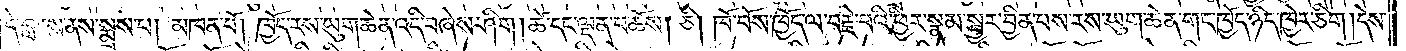དེ་བླངས་ནས་སྨྲས་པ། མཁན་པོ། ཁྱོད་རས་ཡུག་ཆེན་འདི་བཞེས་ཤིག །ཚེ་དང་ལྡན་པ་ཆོས། ཅི། ཁོ་བོས་ཁྱོད་ལ་བརྗེ་བའི་ཕྱིར་སྣམ་སྦྱར་བྱིན་པས་རས་ཡུག་ཆེན་གང་ཁྱོད་ཉིད་ཁྱེར་ཅིག །དེས་
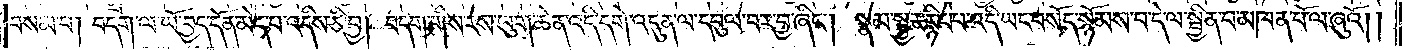བསམ་པ། བདག་ལ་ཡོ་བྱད་དོན་མེད་པ་འདིས་ཅི་བྱ། བདག་གིས་རས་ཡུག་ཆེན་འདི་དགེ་འདུན་ལ་དབུལ་བར་བྱ་ཞིང༌། སྣམ་སྦྱར་རྙིང་པ་འདི་ཡང་བསོད་སྙོམས་པ་དེ་ལ་སྦྱིན་པ་མཁན་པོ་ལ་ཞུའོ། །
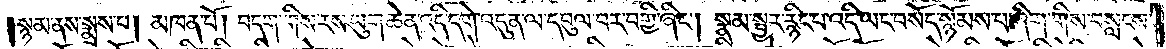སྙམ་ནས་སྨྲས་པ། མཁན་པོ། བདག་གིས་རས་ཡུག་ཆེན་འདི་དགེ་འདུན་ལ་དབུལ་བར་བགྱི་ཞིང༌། སྣམ་སྦྱར་རྙིང་པ་འདི་ཡང་བསོད་སྙོམས་པ་ཞིག་གིས་བསླངས་
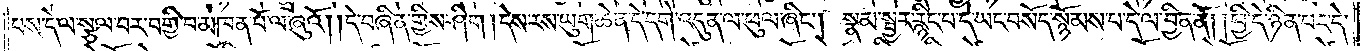བས་དེ་ལ་སྩལ་བར་བགྱི་བ་མཁན་པོ་ལ་ཞུའོ། །དེ་བཞིན་གྱིས་ཤིག །དེས་རས་ཡུག་ཆེན་དེ་དགེ་འདུན་ལ་ཕུལ་ཞིང༌། སྣམ་སྦྱར་རྙིང་པ་དེ་ཡང་བསོད་སྙོམས་པ་དེ་ལ་བྱིན་ནོ། །ཕྱི་དེ་ཉིན་པར་དེ་
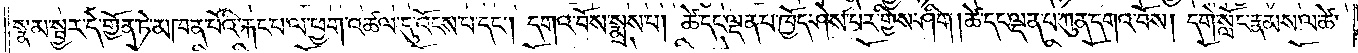སྣམ་སྦྱར་དེ་གྱོན་ཏེ་མཁན་པོའི་རྐང་པ་ལ་ཕྱག་འཚལ་དུ་འོངས་པ་དང༌། དགའ་བོས་སྨྲས་པ། ཚེ་དང་ལྡན་པ་ཁྱོད་ཤེས་པར་གྱིས་ཤིག །ཚེ་དང་ལྡན་པ་ཀུན་དགའ་བོས། དགེ་སློང་རྣམས་ལ་ཚེ་
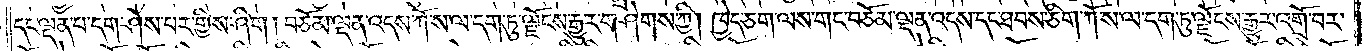དང་ལྡན་པ་དག་ཤེས་པར་གྱིས་ཤིག །བཅོམ་ལྡན་འདས་ཀོ་ས་ལ་དག་ཏུ་ལྗོངས་རྒྱུར་གཤེགས་ཀྱི། ཁྱེད་ཅག་ལས་གང་བཅོམ་ལྡན་འདས་དང་ཐབས་ཅིག་ཀོ་ས་ལ་དག་ཏུ་ལྗོངས་རྒྱུར་འགྲོ་བར་
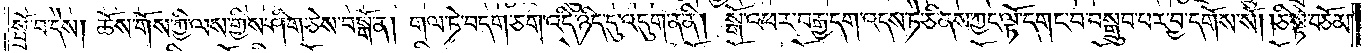སྤྲོ་བ་དེས། ཆོས་གོས་ཀྱི་ལས་གྱིས་ཤིག་ཅེས་བསྒོ་ན། གལ་ཏེ་བདག་ཅག་འདི་ཉིད་དུ་འདུག་ན་ནི། སྒོ་འཕར་བརྒྱ་དག་འདས་ཏེ་ཅི་ནས་ཀྱང་ལྟོ་དགང་བ་བསྒྲུབ་པར་བྱ་དགོས་སོ། །ཅི་སྟེ་བཅོམ་
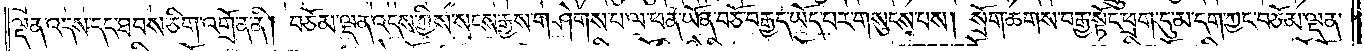ལྡན་འདས་དང་ཐབས་ཅིག་འགྲོ་ན་ནི། བཅོམ་ལྡན་འདས་ཀྱིས་སངས་རྒྱས་གཤེགས་པ་ལ་ཕན་ཡོན་བཅོ་བརྒྱད་ཡོད་པར་གསུངས་པས། སྲོག་ཆགས་བརྒྱ་སྟོང་ཕྲག་དུ་མ་དག་ཀྱང་བཅོམ་ལྡན་
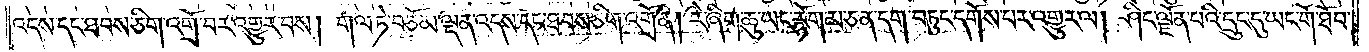འདས་དང་ཐབས་ཅིག་འགྲོ་བར་འགྱུར་བས། གལ་ཏེ་བཅོམ་ལྡན་འདས་དང་ཐབས་ཅིག་འགྲོ་ན། རེ་ཞིག་ཆུ་ཡང་རྙོག་མ་ཅན་དག་བཏུང་དགོས་པར་འགྱུར་ལ། ཤིང་ལྗོན་པའི་དྲུང་དུ་ཡང་གོ་ཐོབ་
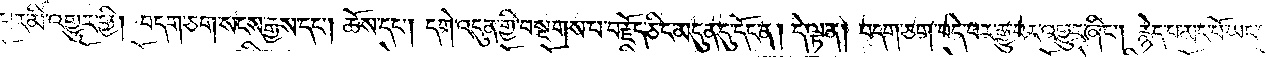པར་མི་འགྱུར་གྱི། བདག་ཅག་སངས་རྒྱས་དང༌། ཆོས་དང༌། དགེ་འདུན་གྱི་བསྔགས་པ་བརྗོད་ཅིང་མདུན་དུ་དོང་ན། དེ་ལྟ་ན། བདག་ཅག་བདེ་བར་རྒྱུ་བར་འགྱུར་ཞིང༌། རྙེད་པ་མང་པོ་ཡང་འགྲུབ་པར་འགྱུར་
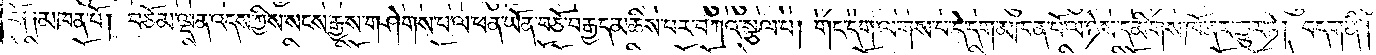རོ༑ ༑མཁན་པོ། བཅོམ་ལྡན་འདས་ཀྱིས་སངས་རྒྱས་གཤེགས་པ་ལ་ཕན་ཡོན་བཅོ་བརྒྱད་མཆིས་པར་བཀའ་སྩལ་པ། གང་དག་ལགས་པ་དེ་དག་མཁན་པོ་ལ་ཉེས་དམིགས་ཁོ་ནར་གྱུར་ཏེ། བདག་ནི།
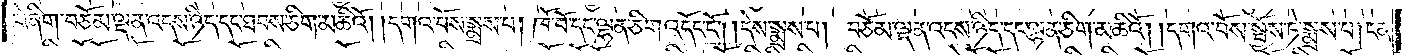རེ་ཞིག་བཅོམ་ལྡན་འདས་ཉིད་དང་ཐབས་ཅིག་མཆིའོ། །དགའ་བོས་སྨྲས་པ། ཁོ་བོ་དང་ལྷན་ཅིག་འདོང་ངོ༌། །དེས་སྨྲས་པ། བཅོམ་ལྡན་འདས་ཉིད་དང་ལྷན་ཅིག་མཆིའོ། །དགའ་བོས་སྤྱོས་ཏེ་སྨྲས་པ། ངན་
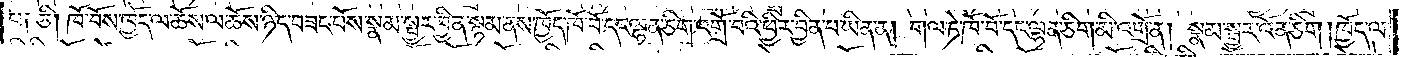པ། ཅི། ཁོ་བོས་ཁྱོད་ལ་ཆོས་ལ་ཆོས་ཉིད་བཟང་པོས་སྣམ་སྦྱར་བྱིན་སྙམ་ནས་ཁྱོད་ཁོ་བོ་དང་ལྷན་ཅིག་འགྲོ་བའི་ཕྱིར་བྱིན་པ་ཡིན་ན། གལ་ཏེ་ཁོ་བོ་དང་ལྷན་ཅིག་མི་འགྲོ་ན། སྣམ་སྦྱར་འོན་ཅིག །ཁྱོད་ལ་
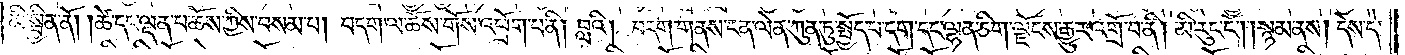མི་སྦྱིན་ནོ། །ཚེ་དང་ལྡན་པ་ཆོས་ཀྱིས་བསམ་པ། བདག་ལ་ཆོས་གོས་འཕྲོག་པ་ནི། བླའི། བདག་གནས་ངན་ལེན་ཀུན་ཏུ་སྤྱོད་པ་དག་དང་ལྷན་ཅིག་ལྗོངས་རྒྱུར་འགྲོ་བ་ནི། མི་རུང་ངོ༌། །སྙམ་ནས། དེས་དེ་
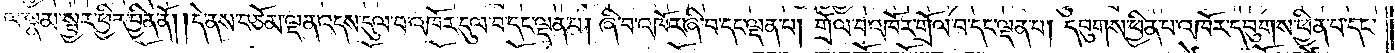ལ་སྣམ་སྦྱར་ཕྱིར་བྱིན་ནོ། །དེ་ནས་བཅོམ་ལྡན་འདས་དུལ་བ་འཁོར་དུལ་བ་དང་ལྡན་པ། ཞི་བ་འཁོར་ཞི་བ་དང་ལྡན་པ། གྲོལ་བ་འཁོར་གྲོལ་བ་དང་ལྡན་པ། དབུགས་ཕྱིན་པ་འཁོར་དབུགས་ཕྱིན་པ་དང་
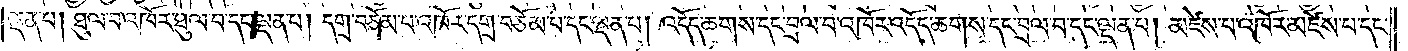ལྡན་པ། ཐུལ་བ་འཁོར་ཐུལ་བ་དང་ལྡན་པ། དགྲ་བཅོམ་པ་འཁོར་དགྲ་བཅོམ་པ་དང་ལྡན་པ། འདོད་ཆགས་དང་བྲལ་བ་འཁོར་འདོད་ཆགས་དང་བྲལ་བ་དང་ལྡན་པ། མཛེས་པ་འཁོར་མཛེས་པ་དང༌།
